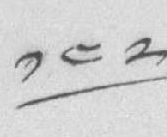༡༤༢
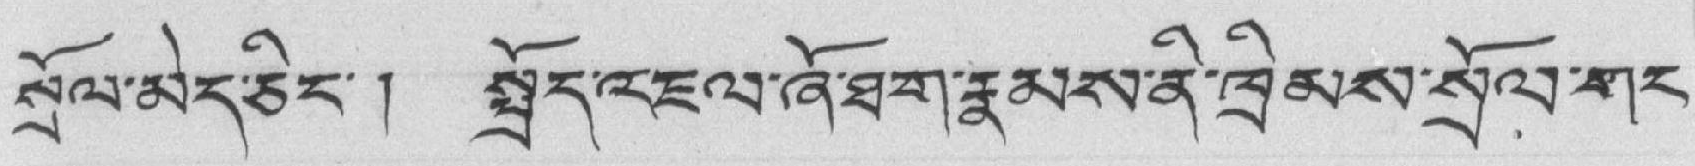སྲོལ་མེད་ཅིང་། སྤྲོད་འཇལ་ཞོ་ཐག་རྣམས་ནི་ཁྲིམས་སྲོལ་གང་
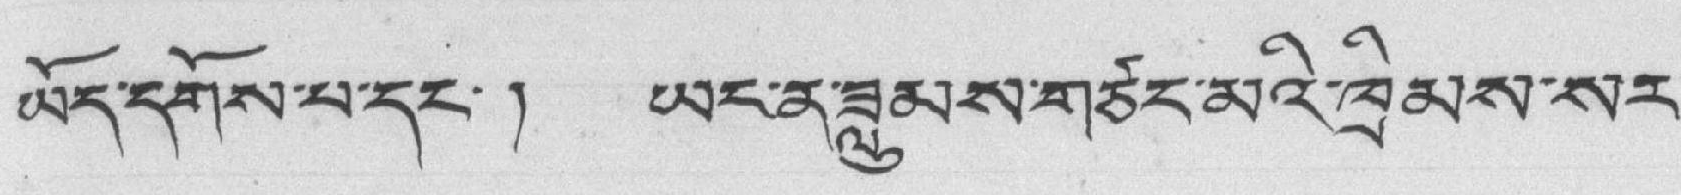ཡོད་དགོས་པ་དང་། ཡང་ན་ཟླུམས་གཙང་མའི་ཁྲིམས་སར་
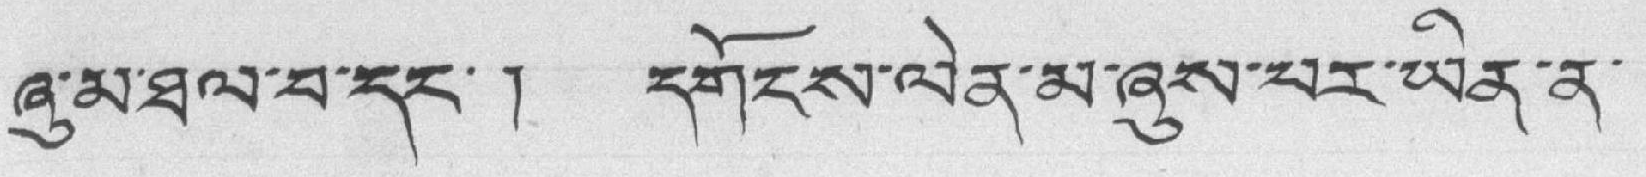ཞུ་མ་ཐལ་བ་དང་ ། དགོངས་ལེན་མ་ཞུས་པར་ཡིན་ན་
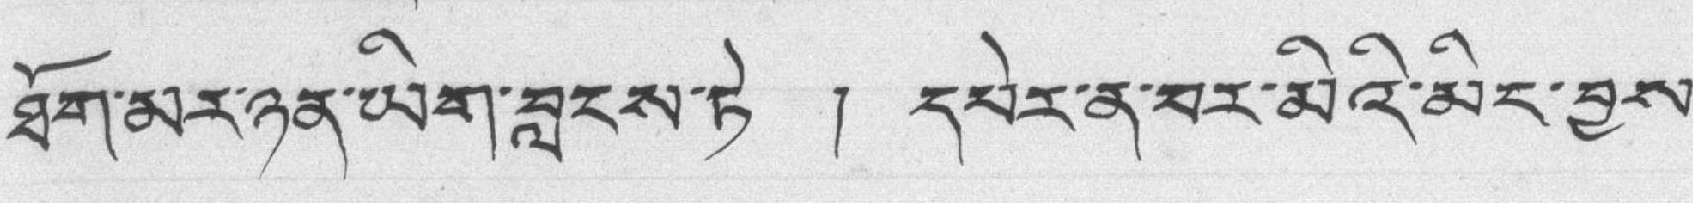ཐོག་མར་ཉན་ཡིག་བླངས་ཏེ ། དཔེར་ན་བར་མིའི་མང་བྱས་
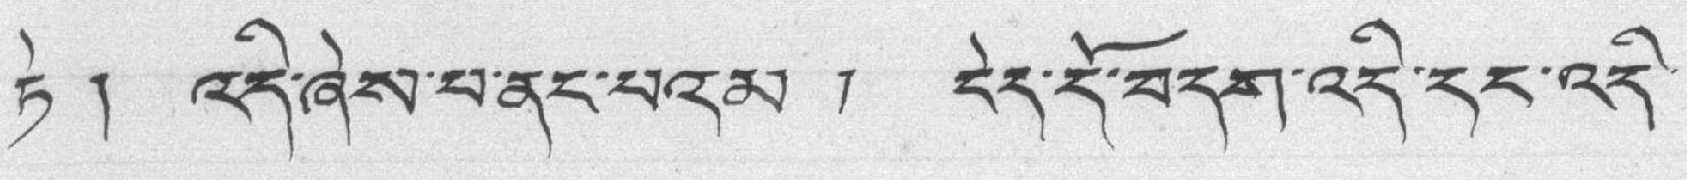ཏེ ། འདི་ཞེས་པ་ནང་པའམ ། ངེད་དོ་བདག་འདི་དང་འདི་
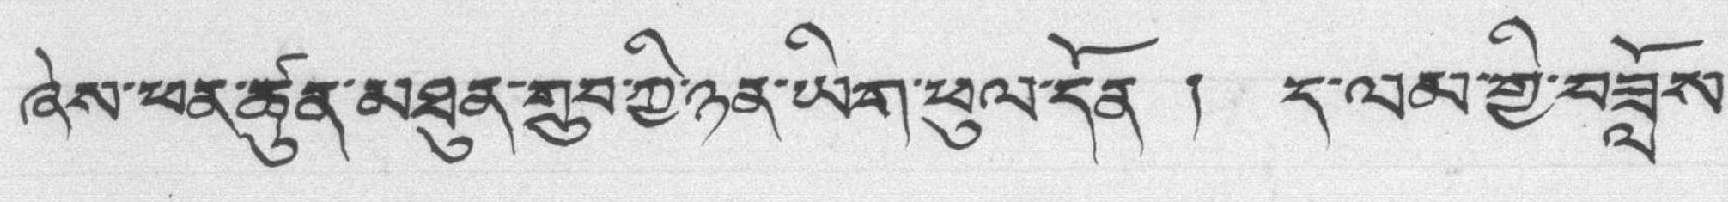ཞེས་ཕན་ཚུན་མཐུན་གྲུབ་ཀྱི་ཉན་ཡིག་ཕུལ་དོན ། ད་ལམ་གྱི་བཟློས་
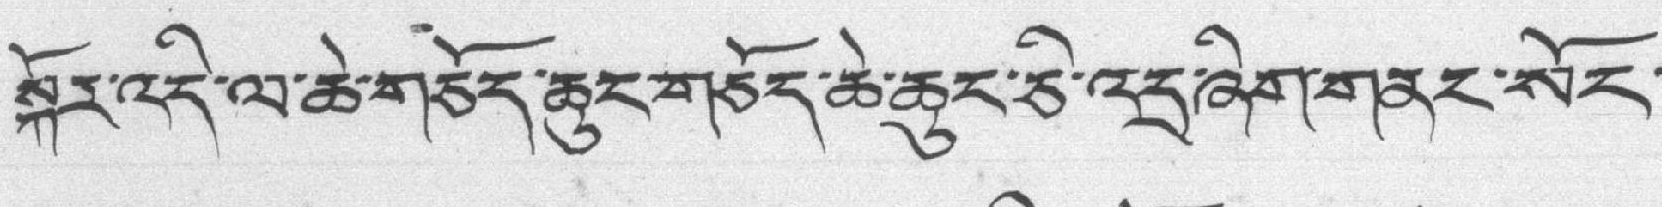སྐོར་འདི་ལ་ཆེ་གཅོད་ཆུང་གཅོད་ཆེ་ཆུང་ཅི་འདྲ་ཞིག་གནང་སོང་
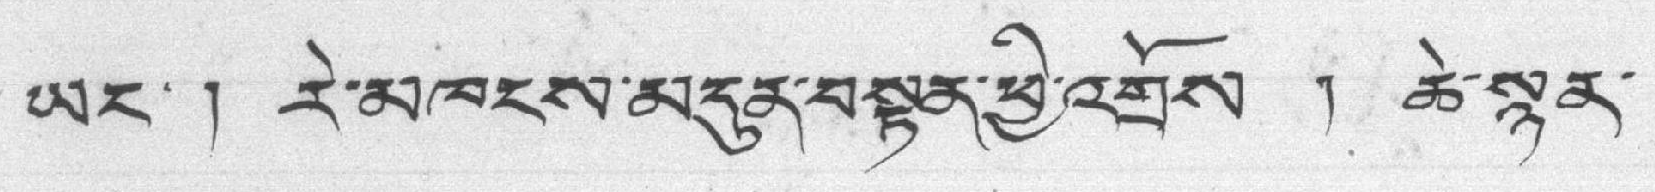ཡང་། རེ་མཁངས་མདུན་བསྟན་ཕྱི་འགྲོས ། ཚེ་སྙན་
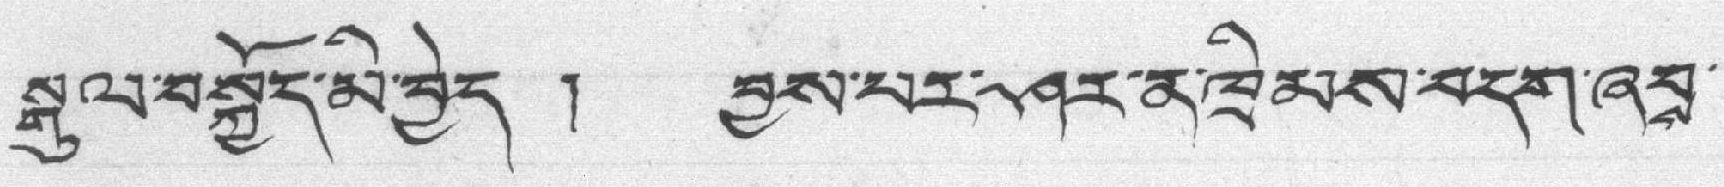སྒུལ་བསྐྱོད་མི་བྱེད ། བྱས་པར་ཤར་ན་ཁྲིམས་བདག་ཞབས་
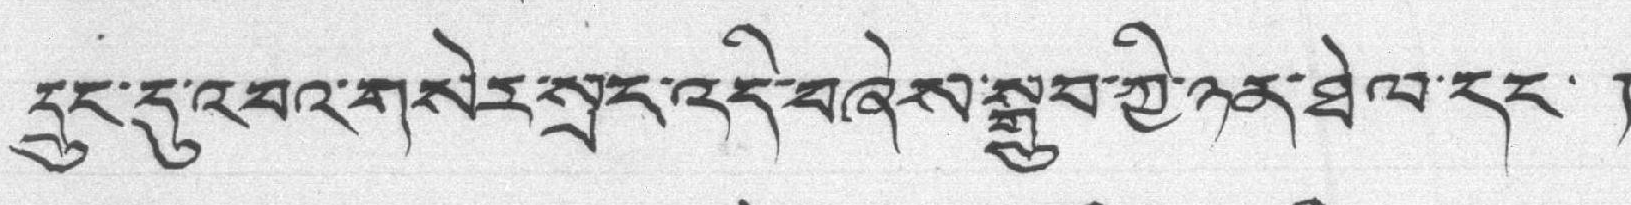དྲུང་དུ་འབའ་གསེར་སྲང་འདི་བཞེས་སྒྲུབ་ཀྱི་ཉན་ཐེལ་དང་ །
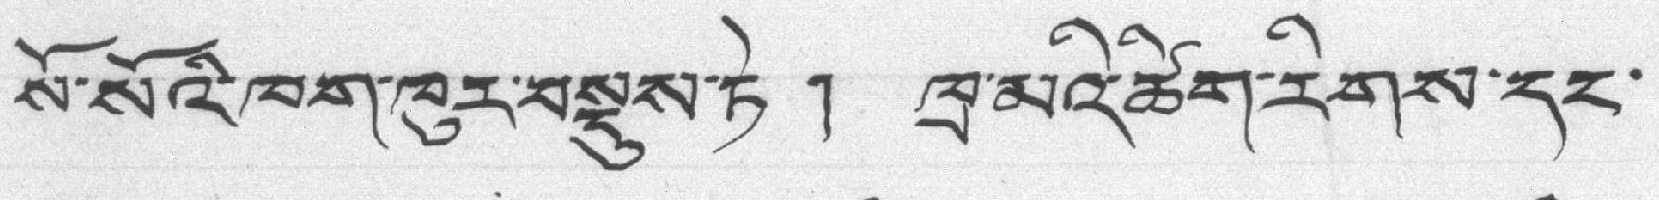སོ་སོའི་ཁག་ཁུར་བསྡུས་ཏེ ། ཁྲ་མའི་ཚིག་རིགས་དང་
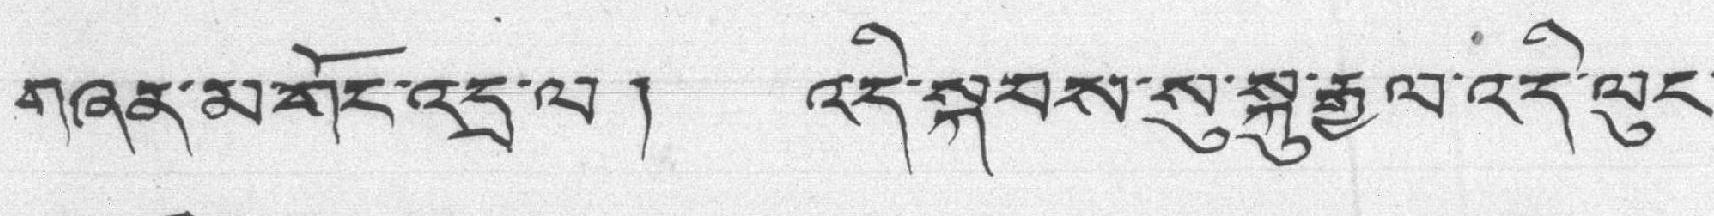གཞན་མ་གོང་འདྲ་ལ ། འདི་སྐབས་སུ་སྐུ་རྒྱལ་འདི་ལུང་
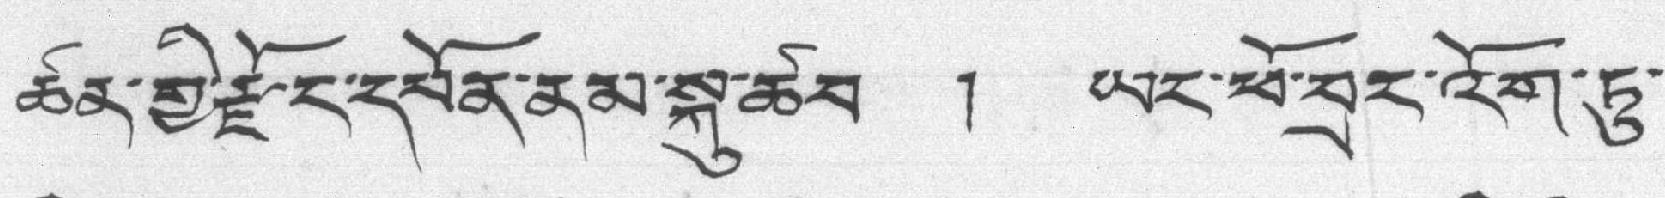ཚན་གྱི་རྫོང་དཔོན་ནམ་སྐུ་ཚབ ། ཡང་ཕོ་བྲང་འོག་ཏུ་
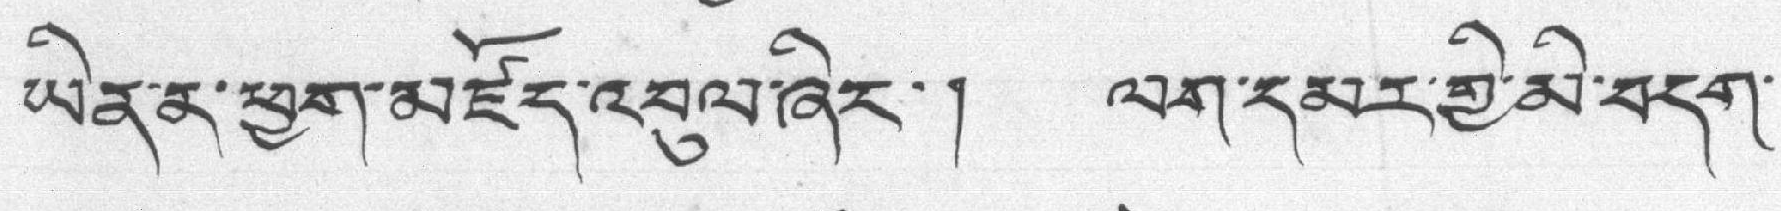ཡིན་ན་ཕྱག་མཛོད་འབུལ་ཞིང་། ལག་དམར་གྱི་མི་བདག་
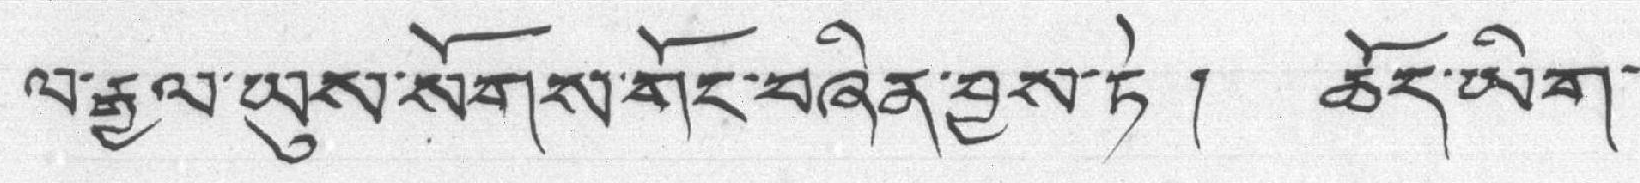ལ་རྒྱལ་ཡུས་སོགས་གོང་བཞིན་བྱས་ཏེ ། ཆོད་ཡིག་
